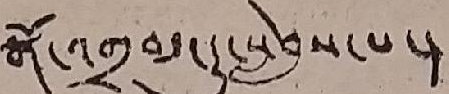སྒོ་འགྲམ་དུ་སླེབས་པ་།
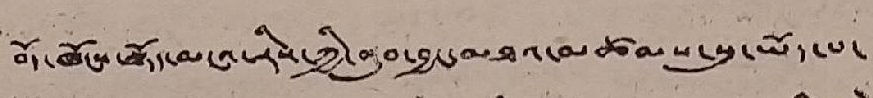བོད་ཁོངས་སྟོདམངའ་རིས་ཀྱི་ནུབ་བྱང་མཐའ་མཚམས་སུ་ཡོད་པ་
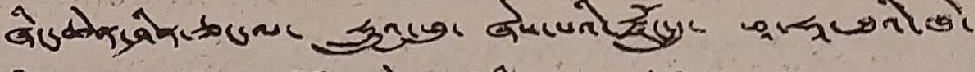ཞིང་ཆེན་ཤིན་ཅང་ལ་ ཧྲུའུ་ཕུ་ ཞེས་པའི་རྫོང་དུ་ ཕཱ་ཧཱ་ཐའི་ཁེ་
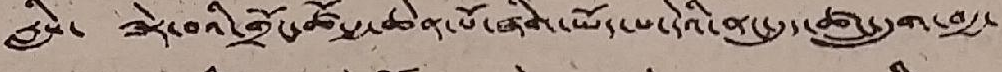རླིས་ ཟེར་བའི་གྲོང་ཚོ་རྒྱ་ཆེན་པོ་ཞིག་ཡོད་པ་དེའི་ནང་དུ་ཚང་དྲུག་བརྒྱ་
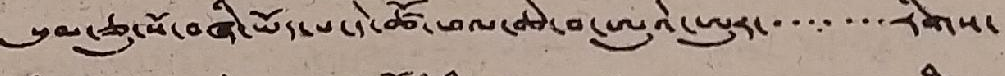སུམ་ཅུ་སོ་བཞི་ཡོད་པ་དེ་ཚོ་ཕལ་ཆེ་བ་ཨུའེ་ཨུར་་་་་་་་རིགས་
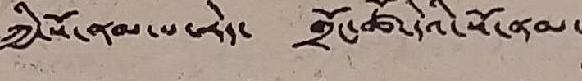ཀྱི་སོ་ནམ་པ་རེད་ གྲོང་ཚོ་དེའི་སོ་ནམ་
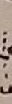པ་
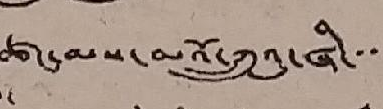ཚང་མས་མའོ་ཀྲུའུ་ཞི་་་་
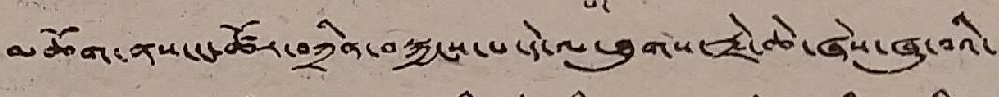མཆོག་ནས་ངང་ཚོར་བཀྲིན་བསྐྱངས་པ་དེ་ལ་ཐུགས་རྗེ་ཆེ་ཞེས་ཞུ་བའི་
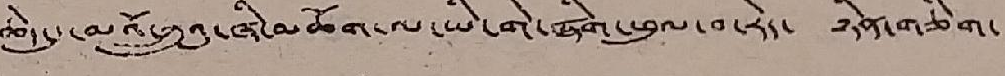ཆེད་དུ་མའོ་ཀྲུའུ་ཞི་མཆོག་ལ་ཡི་གེ་ཞིག་ཕུལ་བ་རེད་ ཉིན་གཅིག་
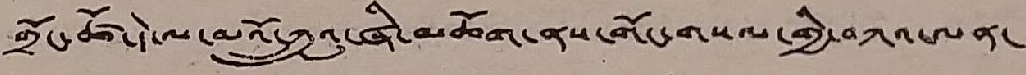གྲོང་ཚོ་དེ་ལ་མའོ་ཀྲུའུ་ཞི་མཆོག་ནས་གོང་གསལ་གྱི་བཀའ་ལན་
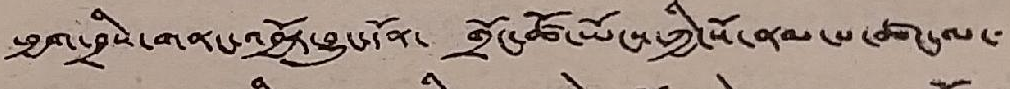ཕྱག་བྲིས་གནང་འབྱོར་བྱུང་དོན་ གྲོང་ཚོ་ཡོངས་ཀྱི་སོ་ནམ་པ་ཚང་མ་་་
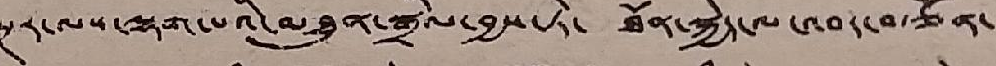སྔར་ལས་ལྷག་པའི་མཐུན་སྒྲིལ་བྱས་ཏེ་ ཐོན་སྐྱེད་ལ་འབད་བརྩོན་
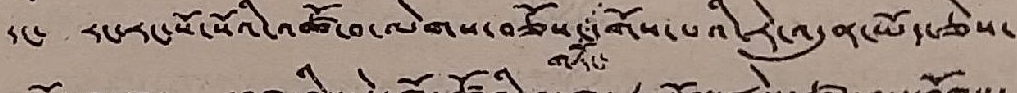དང་ རང་རང་སོ་སོའི་འཚོ་བ་ལེགས་བཅོས་ གཏོང་ དགོས་པའི་རེ་འདུན་ཡོད་ཅེས་
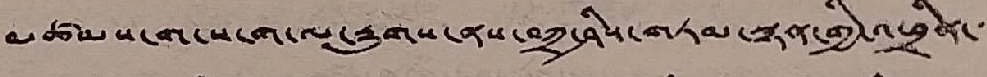མཚམས་ག་ས་ག་ལ་རྒྱུགས་ནས་བཀྲ་ཤིས་གཏམ་སྙན་གྱི་འཕྲིན་་་
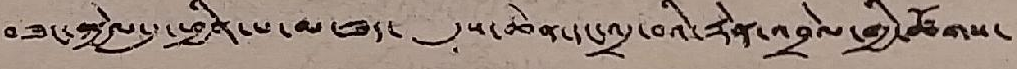བཟང་སྐྱེལ་དུ་ཕྱིན་པ་མ་ཟད་ དུས་ཆེན་དང་འདྲ་བའི་རྟེན་འབྲེལ་གྱི་ཚོགས་
